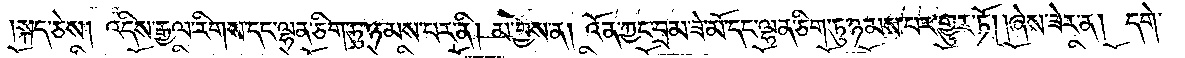སྐད་ཅེས། འདིས་རྒྱལ་རིགས་དང་ལྷན་ཅིག་ཏུ་ཉམས་པར་ནི། མ་བྱས་ན། འོན་ཀྱང་བྲམ་ཟེ་མོ་དང་ལྷན་ཅིག་ཏུ་ཉམས་པར་གྱུར་ཏོ། །ཞེས་ཟེར་ན། དགེ་
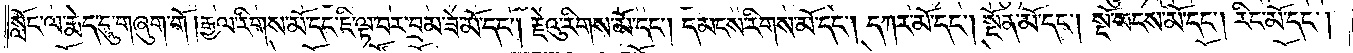སློང་ལ་རྨེད་དུ་གཞུག་གོ །རྒྱལ་རིགས་མོ་དང་ཇི་ལྟ་བར་བྲམ་ཟེ་མོ་དང༌། རྗེའུ་རིགས་མོ་དང༌། དམངས་རིགས་མོ་དང༌། དཀར་མོ་དང༌། སྔོན་མོ་དང༌། སྔོ་སངས་མོ་དང༌། རིང་མོ་དང༌།
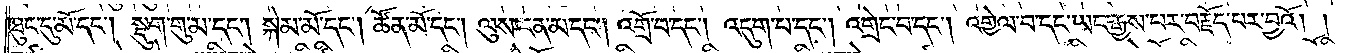ཐུང་དུ་མོ་དང༌། སྡུག་གུ་མ་དང༌། སྐེམ་མོ་དང༌། ཚོན་མོ་དང༌། ལུས་ངན་མ་དང༌། འགྲོ་བ་དང༌། འདུག་པ་དང༌། འགྲེང་བ་དང༌། འགྱེལ་བ་དང་ཡང་རྒྱས་པར་བརྗོད་པར་བྱའོ། །
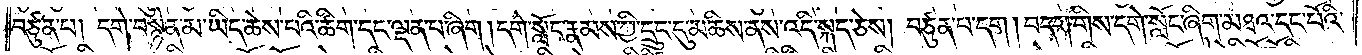བཙུན་པ། དགེ་བསྙེན་མ་ཡིད་ཆེས་པའི་ཚིག་དང་ལྡན་པ་ཞིག །དགེ་སློང་རྣམས་ཀྱི་དྲུང་དུ་མཆིས་ནས་འདི་སྐད་ཅེས། བཙུན་པ་དག །བདག་གིས་དགེ་སློང་ཞིག་མཐའ་དང་པོའི་
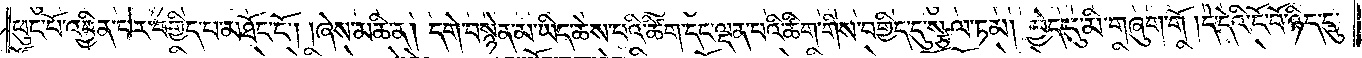ཕུང་པོ་འབྱིན་པར་བགྱིད་པ་མཐོང་ངོ༌། །ཞེས་མཆི་ན། དགེ་བསྙེན་མ་ཡིད་ཆེས་པའི་ཚིག་དང་ལྡན་པའི་ཚིག་གིས་བགྱིད་དུ་སྩལ་ཏམ། བྱེད་དུ་མི་གཞུག་གོ། །དེ་དེའི་ངོ་བོ་ཉིད་དུ་
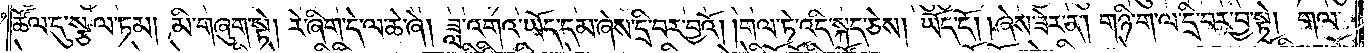ཚོལ་དུ་སྩལ་ཏམ། མི་གཞུག་སྟེ། རེ་ཞིག་དེ་ལ་ཆེ་ཞེ། ཟླ་འགའ་ཡོད་དམ་ཞེས་དྲི་བར་བྱའོ། །གལ་ཏེ་འདི་སྐད་ཅེས། ཡོད་དོ། །ཞེས་ཟེར་ན། གཉི་ག་ལ་དྲི་བར་བྱ་སྟེ། གལ་
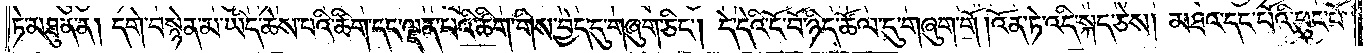ཏེ་མཐུན་ན། དགེ་བསྙེན་མ་ཡིད་ཆེས་པའི་ཚིག་དང་ལྡན་པའི་ཚིག་གིས་བྱེད་དུ་གཞུག་ཅིང༌། དེ་དེའི་ངོ་བོ་ཉིད་ཚོལ་དུ་གཞུག་གོ །འོན་ཏེ་འདི་སྐད་ཅེས། མཐའ་དང་པོའི་ཕུང་པོ་
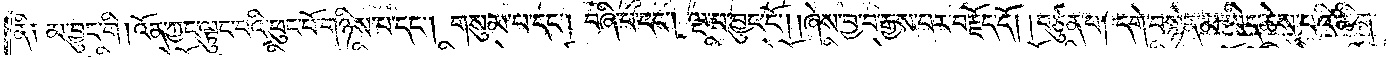ནི༑ མ་བྱུང་གི །འོན་ཀྱང་ལྟུང་བའི་ཕུང་པོ་གཉིས་པ་དང༌། གསུམ་པ་དང༌། བཞི་པ་དང༌། ལྔ་པ་བྱུང་ངོ༌། །ཞེས་བྱ་བ་རྒྱས་པར་བརྗོད་དོ། །བཙུན་པ། དགེ་བསྙེན་མ་ཡིད་ཆེས་པའི་ཚིག་
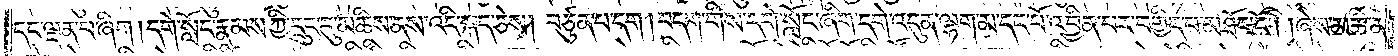དང་ལྡན་པ་ཞིག །དགེ་སློང་རྣམས་ཀྱི་དྲུང་དུ་མཆིས་ནས་འདི་སྐད་ཅེས། བཙུན་པ་དག །བདག་གིས་དགེ་སློང་ཞིག་དགེ་འདུན་ལྷག་མ་དང་པོ་འབྱིན་པར་བགྱིད་པ་མཐོང་ངོ༌། །ཞེས་མཆི་ན།
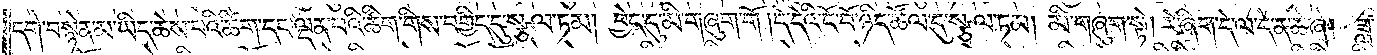དགེ་བསྙེན་མ་ཡིད་ཆེས་པའི་ཚིག་དང་ལྡན་པའི་ཚིག་གིས་བགྱིད་དུ་སྩལ་ཏམ། བྱེད་དུ་མི་གཞུག་གོ །དེ་དེའི་ངོ་བོ་ཉིད་ཚོལ་དུ་སྩལ་ཏམ། མི་གཞུག་སྟེ། རེ་ཞིག་དེ་ལ་དེ་ན་ཆེ་ཞེ། ཟླ་
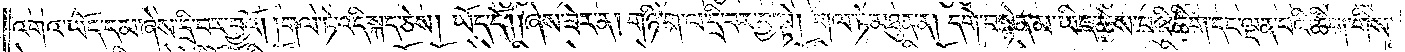འགའ་ཡོད་དམ་ཞེས་དྲི་བར་བྱའོ། །གལ་ཏེ་འདི་སྐད་ཅེས། ཡོད་དོ། །ཞེས་ཟེར་ན། གཉི་ག་ལ་དྲི་བར་བྱ་སྟེ། གལ་ཏེ་མཐུན་ན། དགེ་བསྙེན་མ་ཡིད་ཆེས་པའི་ཚིག་དང་ལྡན་པའི་ཚིག་གིས་
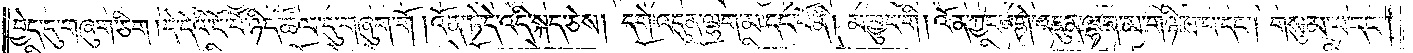བྱེད་དུ་གཞུག་ཅིག །དེ་དེའི་ངོ་བོ་ཉིད་ཚོལ་དུ་གཞུག་གོ །འོན་ཏེ་དེ་འདི་སྐད་ཅེས། དགེ་འདུན་ལྷག་མ་དང་པོ་ནི། མ་བྱུང་གི །འོན་ཀྱང་དགེ་འདུན་ལྷག་མ་གཉིས་པ་དང༌། གསུམ་པ་དང༌།
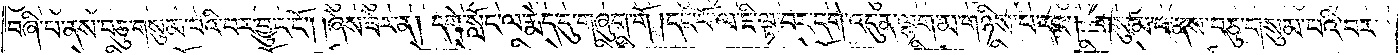བཞི་པ་ནས་བཅུ་གསུམ་པའི་བར་བྱུང་ངོ༌། །ཞེས་ཟེར་ན། དགེ་སློང་ལ་རྨེད་དུ་གཞུག་གོ །དང་པོ་ལ་ཇི་ལྟ་བར་དགེ་འདུན་ལྷག་མ་གཉིས་པ་དང༌། གསུམ་པ་ནས་བཅུ་གསུམ་པའི་བར་
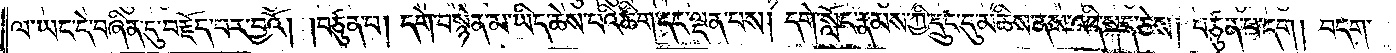ལ་ཡང་དེ་བཞིན་དུ་བརྗོད་པར་བྱའོ། །བཙུན་པ། དགེ་བསྙེན་མ་ཡིད་ཆེས་པའི་ཚིག་དང་ལྡན་པས། དགེ་སློང་རྣམས་ཀྱི་དྲུང་དུ་མཆིས་ནས་འདི་སྐད་ཅེས། བཙུན་པ་དག། བདག་
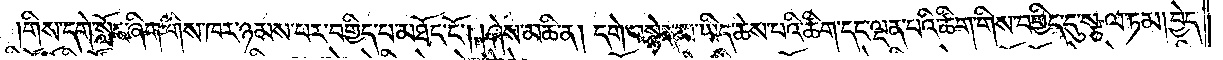།གིས་དགེ་སློང་ཞིག་གིས་ཁར་ཉམས་པར་བགྱིད་པ་མཐོང་ངོ༌། །ཞེས་མཆི་ན། དགེ་བསྙེན་མ་ཡིད་ཆེས་པའི་ཚིག་དང་ལྡན་པའི་ཚིག་གིས་བགྱིད་དུ་སྩལ་ཏམ། བྱེད་
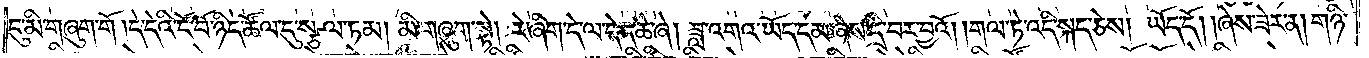དུ་མི་གཞུག་གོ །དེ་དེའི་ངོ་བོ་ཉིད་ཚོལ་དུ་སྩལ་ཏམ། མི་གཞུག་སྟེ། རེ་ཞིག་དེ་ལ་དེ་ན་ཆེ་ཞེ། ཟླ་འགའ་ཡོད་དམ་ཞེས་དྲི་བར་བྱའོ། །གལ་ཏེ་འདི་སྐད་ཅེས། ཡོད་དོ། །ཞེས་ཟེར་ན། གཉི་
